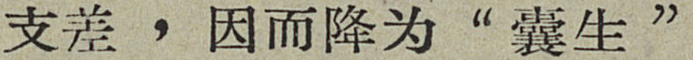支差，因而降为“囊生”
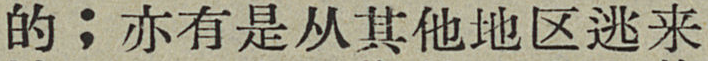的；亦有是从其他地区逃来
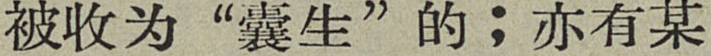被收为“囊生”的；亦有某
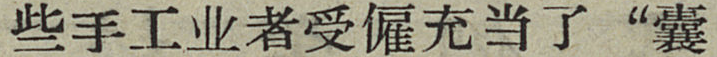些手工业者受僱虫当了“囊
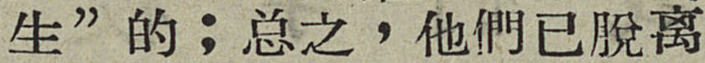生”的；总支，他們已脱离
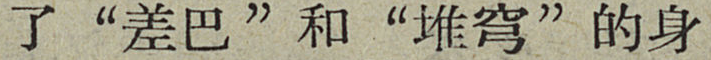了“差巴”和“堆穹”的身
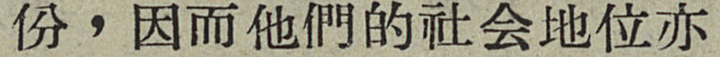份，因而他們的社会地位亦
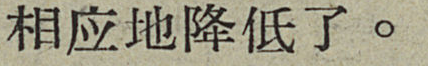相应地降低了。
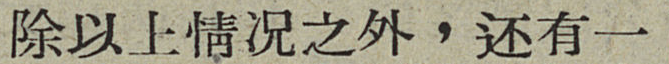除以上情况之外，还有一
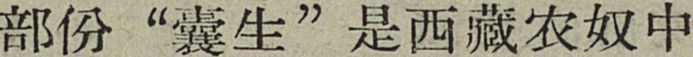部份“囊生”是西藏农奴中
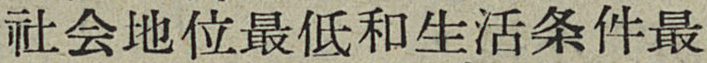社会地位最低和生活条件最
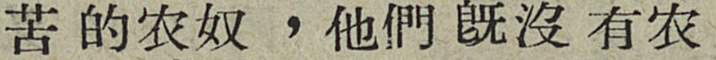苦的农奴，他們旣沒有农
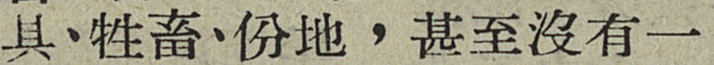具、牲畜、份地，甚至沒有一
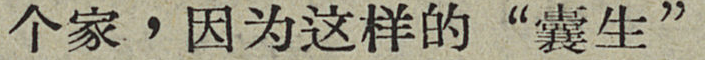个家，因为这样的“囊生”
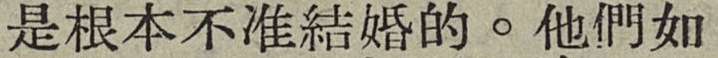是根本不准結婚的。他們如
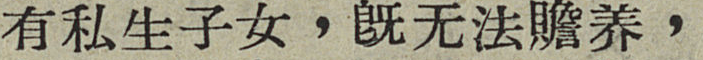有私生子女，旣无法贍养，
